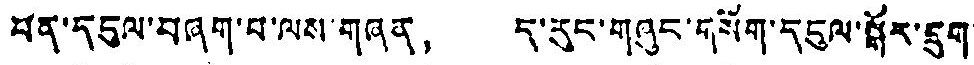བོན་དངུལ་བཞག་པ་ལས་གཞན， ད་རུང་གཞུང་གསོག་དངུལ་སྒོར་དྲུག་
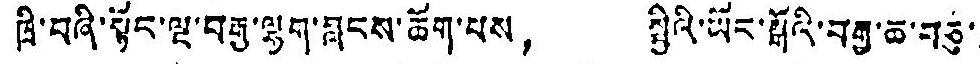ཁྲི་བཞི་སྟོང་ལྔ་བརྒྱ་ལྷག་བླངས་ཆོག་པས， སྤྱིའི་ཡོང་སྒོའི་བརྒྱ་ཆ་བཅུ་
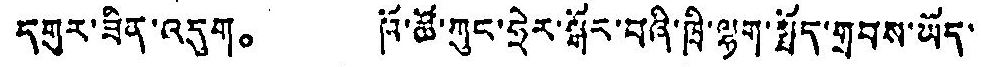དགུར་ཟིན་འདུག。 ཁོ་ཚོ་ཀུང་ཧྲེར་སྒོར་བཞི་ཁྲི་ལྷག་སྤྱོད་གྲབས་ཡོད་
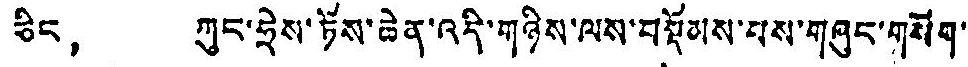ཅིང， ཀུང་ཧྲེས་ཏོས་ཆེན་འདི་གཉིས་ལས་བསྡོམས་པས་གཞུང་གསོག་
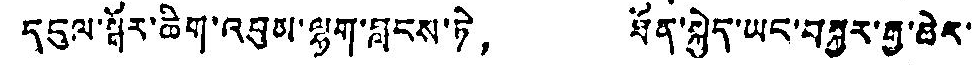དངུལ་སྒོར་ཆིག་འབུམ་ལྷག་བླངས་ཏེ， ཐོན་སྐྱེད་ཡང་བསྐྱར་རྒྱ་ཆེར་
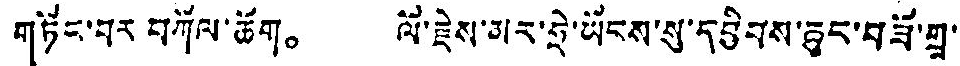གཏོང་བར བཀོལ་ཆོག。 ལོ་རྗེས་མར་ཧྲེ་ཡོངས་སུ་དབྱིབས་ཆུང་བཟོ་གྲྭ་
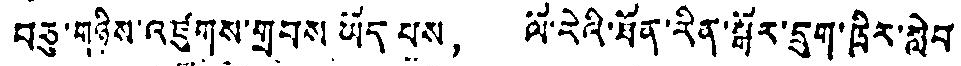བཅུ་གཉིས་འཛུགས་གྲབས ཡོད པས， ལོ་རེའི་ཐོན་རིན་སྒོར་དྲུག་ཁྲིར་སླེབ་
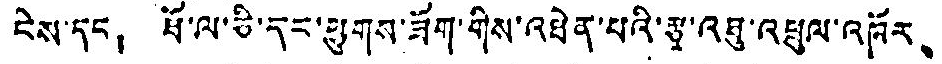ངེས་དང； ཐོ་ལ་ཅི་དང་ཕྱུགས་ཟོག་གིས་འཐེན་པའི་རྩྭ་འཐུ་འཕྲུལ་འཁོར、
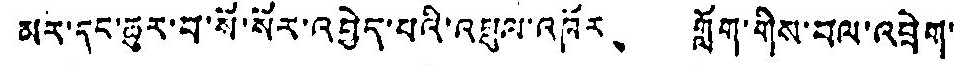མར་དང་མྱུར་བ་སོ་སོར་འབྱེད་པའི་འཕྲུལ་འཁོར、 ཀློག་གིས་བལ་འབྲེག་
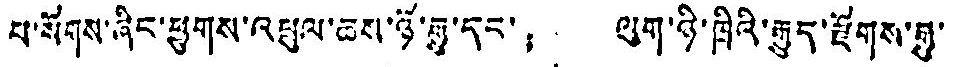པ་སོགས་ཞིང་ཕྱུགས་འཕྲུལ་ཆས་ཉོ་ཧྥུ་དང་； ལུག་ཉི་ཁྲིའི་རྒྱུད་རྫོགས་རྒྱུ་
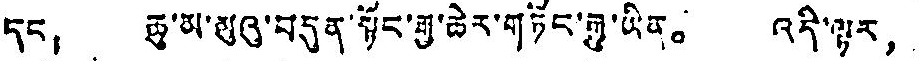དང； ཆུ་མ་མུའུ་བདུན་སོང་རྒྱ་ཆེར་གཏོང་རྒྱུ་ཡིན。 འདི་ལྟར，
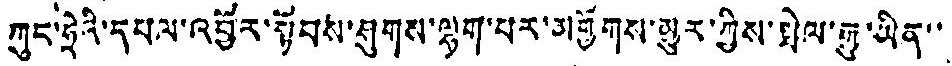ཀུང་ཧྲེའི་དཔལ་འབྱོར་སྟོབས་ཤུགས་ལྷག་པར་མགྱོགས་མྱུར་ཀྱིས་སྤེལ་རྒྱུ་ཡིན་་
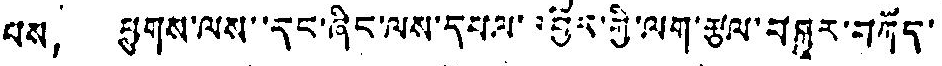པས， ཕྱུགས་ལས་་དང་ཞིང་ལས་དཔལ་འབྱོར་གྱི་ལག་རྩལ་བསྐྱུར་བཀོད་
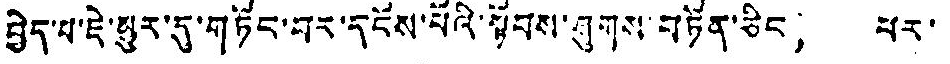བྱེད་པ་ཇེ་མྱུར་དུ་གཏོང་བར་དངོས་པོའི་སྟོབས་ཤུགས་བཏོན་ཅིང， པར་
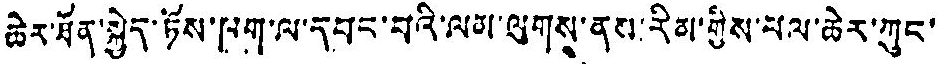ཆེར་ཐོན་སྐྱེད་ཏོས་ཁག་ལ་དབང་པའི་ལམ་ལུགས་ནས་རིམ་གྱིས་ཕལ་ཆེར་ཀུང་
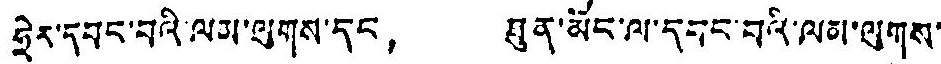ཧྲེར་དབང་བའི་ལམ་ལུགས་དང， ཐུན་མོང་ལ་དབང་བའི་ལམ་ལུགས་
